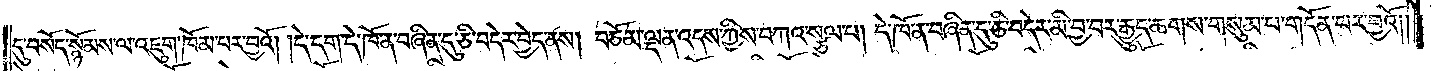དུ་བསོད་སྙོམས་ལ་འཇུག་ཁོམ་པར་བྱའོ། །དེ་དག་དེ་ཁོ་ན་བཞིན་དུ་ཅི་བདེར་བྱེད་ནས། བཅོམ་ལྡན་འདས་ཀྱིས་བཀའ་སྩལ་བ། དེ་ཁོ་ན་བཞིན་དུ་ཅི་བདེར་མི་བྱ་བར་རྒྱུད་ཆགས་གསུམ་པ་གདོན་པར་བྱའོ༎
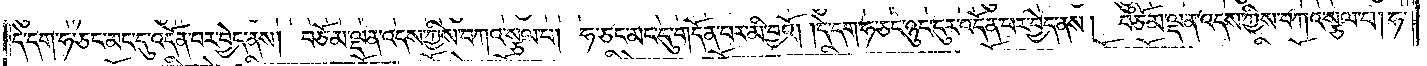དེ་དག་ཧ་ཅང་མང་དུ་འདོན་པར་བྱེད་ནས། བཅོམ་ལྡན་འདས་ཀྱིས་བཀའ་སྩལ་པ། ཧ་ཅང་མང་དུ་གདོན་པར་མི་བྱའོ། །དེ་དག་ཧ་ཅང་ཉུང་དུར་འདོན་པར་བྱེད་ནས། བཅོམ་ལྡན་འདས་ཀྱིས་བཀའ་སྩལ་པ། ཧ་
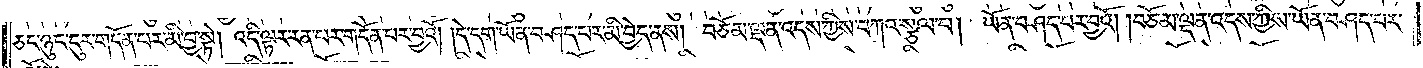ཅང་ཉུང་དུར་གདོན་པར་མི་བྱ་སྟེ། འདི་ལྟར་རིན་པར་གདོན་པར་བྱའོ། །དེ་དག་ཡོན་བཤད་པར་མི་བྱེད་ནས། བཅོམ་ལྡན་འདས་ཀྱིས་བཀའ་སྩལ་པ། ཡོན་བཤད་པར་བྱའོ། །བཅོམ་ལྡན་འདས་ཀྱིས་ཡོན་བཤད་པར་
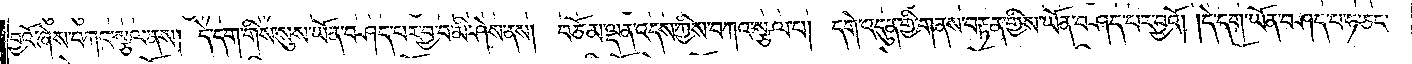བྱའོ་ཞེས་བཀང་སྩལ་ནས། དེ་དག་གིས་སུས་ཡོན་བཤད་པར་བྱ་བ་མི་ཤེས་ནས། བཅོམ་ལྡན་འདས་ཀྱིས་བཀའ་སྩལ་པ། དགེ་འདུན་གྱི་གནས་བརྟན་གྱིས་ཡོན་བཤད་པར་བྱའོ། །དེ་དག་ཡོན་བཤད་པ་ཧ་ཅང་
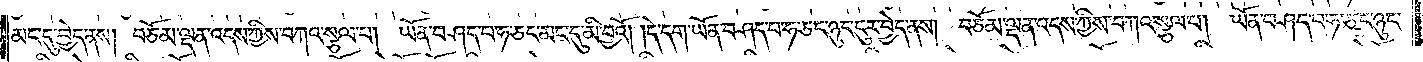མང་དུ་བྱེད་ནས། བཅོམ་ལྡན་འདས་ཀྱིས་བཀའ་སྩལ་པ། ཡོན་བཤད་པ་ཧ་ཅང་མང་དུ་མི་བྱའོ། །དེ་དག་ཡོན་བཤད་པ་ཧ་ཅང་ཉུང་དུར་བྱེད་ནས། བཅོམ་ལྡན་འདས་ཀྱིས་བཀའ་སྩལ་པ། ཡོན་བཤད་པ་ཧ་ཅང་ཉུང་
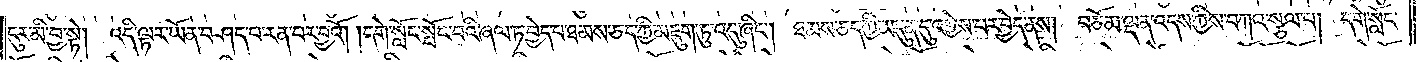དུར་མི་བྱ་སྟེ། འདི་ལྟར་ཡོན་བཤད་པ་རན་པར་བྱའོ། །དགེ་སློང་སྤོང་བའི་ཞལ་ཏ་བྱེད་པ་ཐམས་ཅད་ཀྱི་མཇུག་ཏུ་འདུ་ཞིང༌། ཐམས་ཅད་ཀྱི་མདུན་དུ་འགྱེས་པར་བྱེད་ནས། བཅོམ་ལྡན་འདས་ཀྱིས་བཀའ་སྩལ་པ། དགེ་སློང་
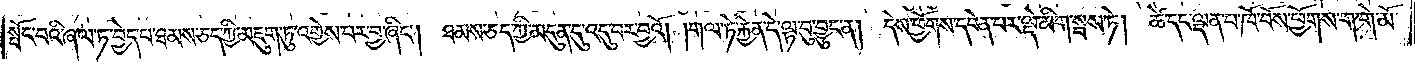སྤོང་བའི་ཞལ་ཏ་བྱེད་པ་ཐམས་ཅད་ཀྱི་མཇུག་ཏུ་འགྱེས་པར་བྱ་ཞིང༌། ཐམས་ཅད་ཀྱི་མདུན་དུ་འདུ་བར་བྱའོ། །གལ་ཏེ་རྐྱེན་དེ་ལྟ་བུ་བྱུང་ན། དེས་ཕྱོགས་དབེན་པར་ལྡེ་མིག་སྦས་ཏེ། ཚེ་དང་ལྡན་པ་ཁོ་བོས་ཕྱོགས་ག་གེ་མོ་
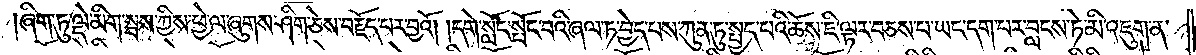ཞིག་ཏུ་ལྡེ་མིག་སྦས་ཀྱིས་ཕྱེ་ལ་ཞུགས་ཤིག་ཅེས་བརྗོད་པར་བྱའོ། །དགེ་སློང་སྤོང་བའི་ཞལ་ཏ་བྱེད་པས་ཀུན་ཏུ་སྤྱད་པའི་ཆོས་ཇི་ལྟར་བཅས་པ་ཡང་དག་པར་བླངས་ཏེ་མི་འཇུག་ན་
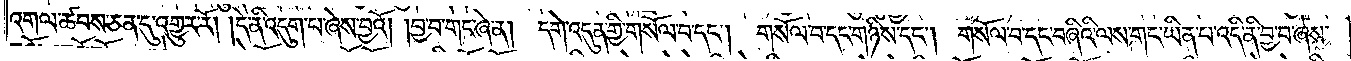འགལ་ཚབས་ཅན་དུ་འགྱུར་རོ། །དེ་ནི་འདུག་པ་ཞེས་བྱའོ། །བྱ་བ་གང་ཞེ་ན། དགེ་འདུན་གྱི་གསོལ་བ་དང༌། གསོལ་བ་དང་གཉིས་དང༌། གསོལ་བ་དང་བཞིའི་ལས་གང་ཡིན་པ་འདི་ནི་བྱ་བ་ཞེས་
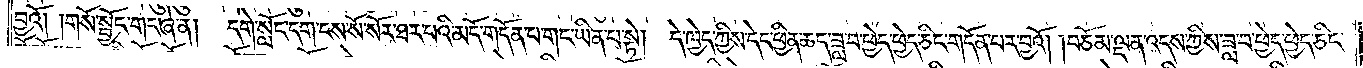བྱའོ། །གསོ་སྦྱོང་གང་ཞེ་ན། དགེ་སློང་དག་ངས་སོ་སོར་ཐར་པའི་མདོ་གདོན་པ་གང་ཡིན་པ་སྟེ། དེ་ཁྱེད་ཀྱིས་དེང་ཕྱིན་ཆད་ཟླ་བ་ཕྱེད་ཕྱེད་ཅིང་གདོན་པར་བྱའོ། །བཅོམ་ལྡན་འདས་ཀྱིས་ཟླ་བ་ཕྱེད་ཕྱེད་ཅིང་
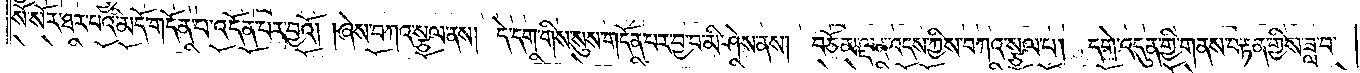སོ་སོར་ཐར་པའི་མདོ་གདོན་པ་འདོན་པར་བྱའོ། །ཞེས་བཀའ་སྩལ་ནས། དེ་དག་གིས་སུས་གདོན་པར་བྱ་བ་མི་ཤེས་ནས། བཅོམ་ལྡན་འདས་ཀྱིས་བཀའ་སྩལ་པ། དགེ་འདུན་གྱི་གནས་བརྟན་གྱིས་ཟླ་བ་
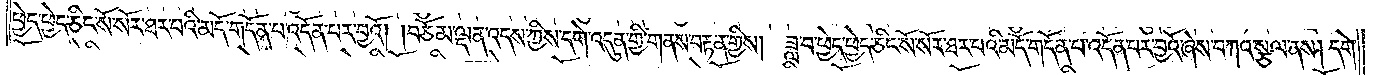ཕྱེད་ཕྱེད་ཅིང་སོ་སོར་ཐར་པའི་མདོ་གདོན་པ་འདོན་པར་བྱའོ། །བཅོམ་ལྡན་འདས་ཀྱིས་དགེ་འདུན་གྱི་གནས་བརྟན་གྱིས། ཟླ་བ་ཕྱེད་ཕྱེད་ཅིང་སོ་སོར་ཐར་པའི་མདོ་གདོན་པ་འདོན་པར་བྱའོ་ཞེས་བཀའ་སྩལ་ནས། དགེ་
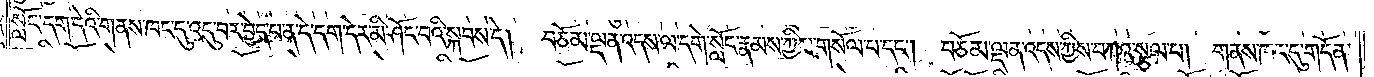སློང་དག་དེའི་གནས་ཁང་དུ་འདུ་བར་བྱེད་པ་ན་དེ་དག་དེར་མི་ཤོང་བའི་སྐབས་དེ།. བཅོམ་ལྡན་འདས་ལ་དགེ་སློང་རྣམས་ཀྱིས་གསོལ་པ་དང༌། བཅོམ་ལྡན་འདས་ཀྱིས་བཀའ་སྩལ་པ། གནས་ཁང་དུ་གདོན་
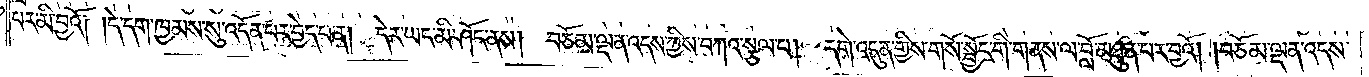པར་མི་བྱའོ། །དེ་དག་ཁྱམས་སུ་འདོན་པར་བྱེད་པ་ན། དེར་ཡང་མི་ཤོང་ནས། བཅོམ་ལྡན་འདས་ཀྱིས་བཀའ་སྩལ་པ། དགེ་འདུན་གྱིས་གསོ་སྦྱོང་གི་གནས་ལ་བློ་མཐུན་པར་བྱའོ། །བཅོམ་ལྡན་འདས་
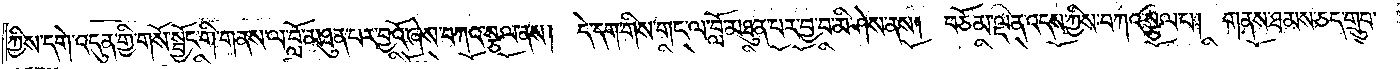ཀྱིས་དགེ་འདུན་གྱི་གསོ་སྦྱོང་གི་གནས་ལ་བློ་མཐུན་པར་བྱའོ་ཞེས་བཀའ་སྩལ་ནས། དེ་དག་གིས་གང་ལ་བློ་མཐུན་པར་བྱ་བ་མི་ཤེས་ནས། བཅོམ་ལྡན་འདས་ཀྱིས་བཀའ་སྩལ་པ། གནས་ཐམས་ཅད་གྲུབ་
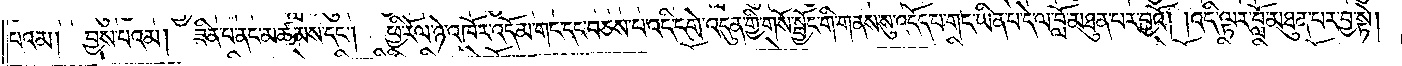པའམ། བྱས་པའམ། ཟིན་པ་ནང་མཚམས་དང༌། ཕྱི་རོལ་ཉེ་འཁོར་འདོམ་གང་དང་བཅས་པ་འདི་དགེ་འདུན་གྱི་གསོ་སྦྱོང་གི་གནས་སུ་འདོད་པ་གང་ཡིན་པ་དེ་ལ་བློ་མཐུན་པར་བྱའོ། །འདི་ལྟར་བློ་མཐུན་པར་བྱ་སྟེ།
